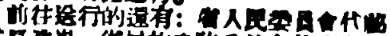前往送行的還有：省人民委員會代祕
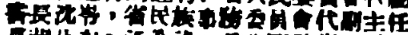書長沈岑，省民族事務委員會代副主任
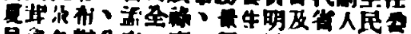夏茸尕布、孟全祿、景生明及省人民委
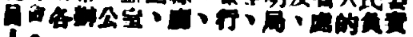員會各辦公室、廳、行、局、處的負責
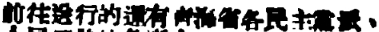前往送行的還有靑海省各民主黨派、
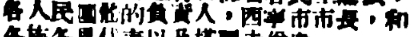各人民團體的負責人，西寧市市長，和
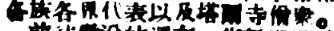各族各界代表以及塔爾寺僧衆。
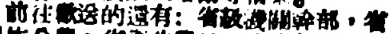前往送行的還有：省級機關幹部，省
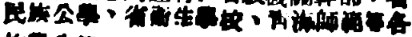民族公學、省衛生學校、靑海師範等各
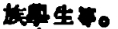族學生等。
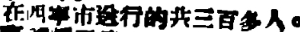在西寧市送行的共三百多人。
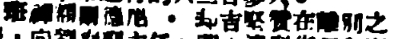班禪額爾德尼・却吉堅贊在離別之
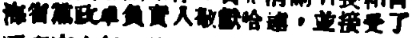海省黨政軍負責人敬獻哈達，並接受了
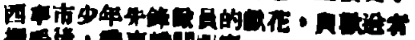西寧市少年先鋒隊員的獻花，與歡送者
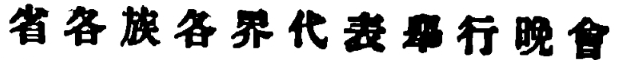省各族各界代表舉行晚會
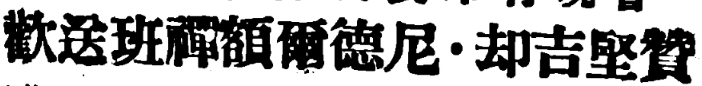歡送班禪額爾德尼・却吉堅贊
